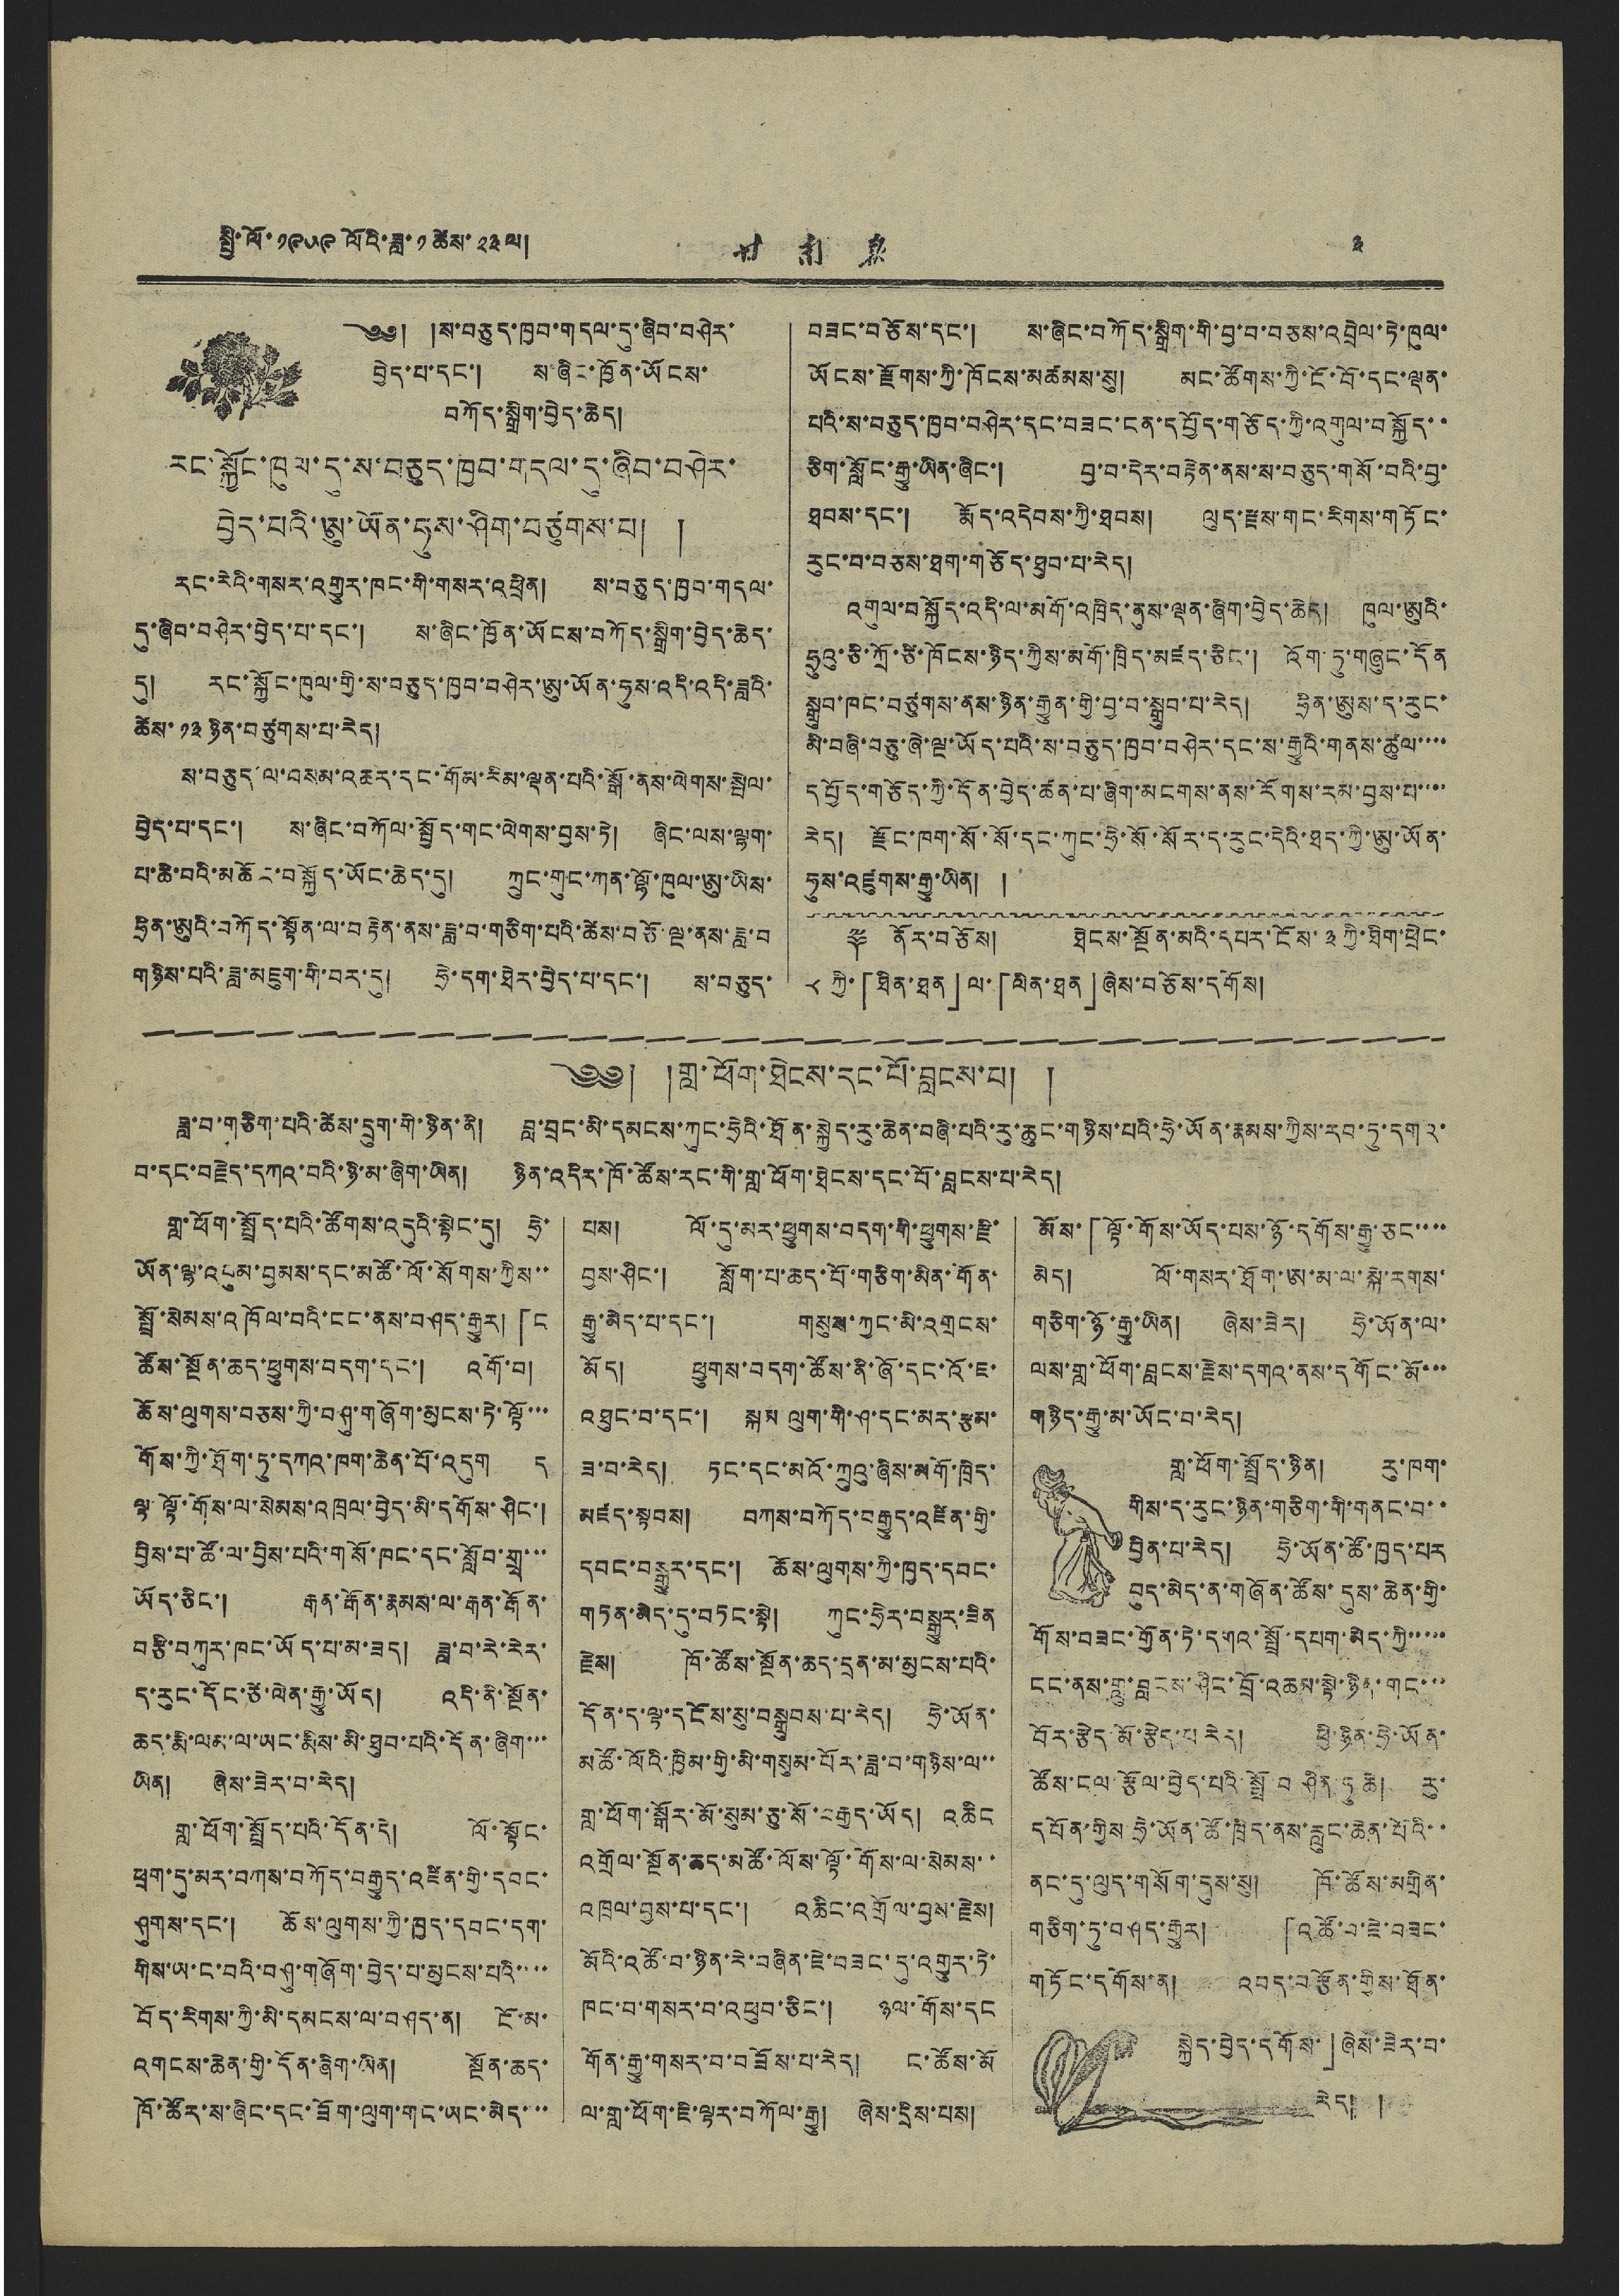སྤྱི་ལོ་ ༡༩༥༩ ལོའི་ཟླ་ ༡ ཚེས་ ༢༣ ལ། 甘 南 報 ༣
༄༅། །ས་བཅུད་ཁྱབ་གདལ་དུ་ཞིབ་བཤེར་
བྱེད་པ་དང་། ས་ཞིང་ཁྱོན་ཡོངས་
བཀོད་སྒྲིག་བྱེད་ཆེད།
རང་སྐྱོང་ཁུལ་དུ་ས་བཅུད་ཁྱབ་གདལ་དུ་ཞིབ་བཤེར་
བྱེད་པའི་ཨུ་ཡོན་ཧུས་ཤིག་བཙུགས་པ། །
རང་རེའི་གསར་འགྱུར་ཁང་གི་གསར་འཕྲིན། ས་བཅུད་ཁྱབ་གདལ་
དུ་ཞིབ་བཤེར་བྱེད་པ་དང་། ས་ཞིང་ཁྱོན་ཡོངས་བཀོད་སྒྲིག་བྱེད་ཆེད་
དུ། རང་སྐྱོང་ཁུལ་གྱི་ས་བཅུད་ཁྱབ་བཤེར་ཨུ་ཡོན་ཧུས་འདི་འདི་ཟླའི་
ཚེས་ ༡༣ ཉིན་བཙུགས་པ་རེད།
ས་བཅུད་ལ་བསམ་འཆར་དང་གོམ་རིམ་ལྡན་པའི་སྒོ་ནས་ལེགས་སྦེལ་
བྱེད་པ་དང་། ས་ཞིང་བཀོལ་སྦྱོད་གང་ལེགས་བྱས་ཏེ། ཞིང་ལས་ལྷག་
པ་ཆེ་བའི་མཆོང་བསྐྱོད་ཡོང་ཆེད་དུ། ཀྲུང་གུང་ཀན་ལྷོ་ཁུལ་ཨུ་ཡིས་
ཧྲིན་ཨུའི་བཀོད་སྟོན་ལ་བརྟེན་ནས་ཟླ་བ་གཅིག་པའི་ཚེས་བཅོ་ལྔ་ནས་ཟླ་བ
གཉིས་པའི་ཟླ་མཇུག་གི་བར་དུ། ཧྲེ་དག་ཐེར་བྱེད་པ་དང་། ས་བཅུད་
བཟང་བཅོས་དང་། ས་ཞིང་བཀོད་སྒྲིག་གི་བྱ་བ་བཅས་འབྲེལ་ཏེ་ཁུལ་
ཡོངས་རྫོགས་ཀྱི་ཁོངས་མཚམས་སུ། མང་ཚོགས་ཀྱི་ངོ་བོ་དང་ལྡན་
པའི་ས་བཅུད་ཁྱབ་བཤེར་དང་བཟང་ངན་དཔྱོད་གཅོད་ཀྱི་འགུལ་བསྐྱོད་་
ཅིག་སློང་རྒྱུ་ཡིན་ཞིང་། བྱ་བ་དེར་བརྟེན་ནས་ས་བཅུད་གསོ་བའི་བྱ་
ཐབས་དང་། རྨོད་འདེབས་ཀྱི་ཐབས། ལུད་རྫས་གང་རིགས་གཏོང་
རུང་བ་བཅས་ཐག་གཅོད་ཐུབ་པ་རེད།
འགུལ་བསྐྱོད་འདི་ལ་མགོ་འཁྲིད་ནུས་ལྡན་ཞིག་བྱེད་ཆེད། ཁུལ་ཨུའི་
ཧྲུའུ་ཅི་ཀྲོ་ཙི་ཁོངས་ཉིད་ཀྱིས་མགོ་ཁྲིད་མཛད་ཅིང་། འོག་ཏུ་གཞུང་དོན
སྒྲུབ་ཁང་བཙུགས་ནས་ཉིན་རྒྱུན་གྱི་བྱ་བ་སྒྲུབ་པ་རེད། ཧྲིན་ཨུས་ད་རུང་
མི་བཞི་བཅུ་ཞེ་ལྔ་ཡོད་པའི་ས་བཅུད་ཁྱབ་བཤེར་དང་ས་རྒྱུའི་གནས་ཚུལ་་་་
དཔྱོད་གཅོད་ཀྱི་དོན་བྱེད་ཚན་པ་ཞིག་མངགས་ནས་རོགས་རམ་བྱས་པ་་་་
རེད། རྫོང་ཁག་སོ་སོ་དང་ཀུང་ཧྲེ་སོ་སོར་ད་རུང་དེའི་ཐད་ཀྱི་ཨུ་ཡོན་
ཧུས་འཛུགས་རྒྱུ་ཡིན། །
༈ ནོར་བཅོས། ཐེངས་སྔོན་མའི་དཔར་ངོས་ ༣ ཀྱི་ཐིག་ཕྲེང་
༨ ཀྱི་「ཐིན་ཐན་」ལ་「ལིན་ཐན་」ཞེས་བཅོས་དགོས།
༄༅། །གླ་ཕོག་ཐེངས་དང་པོ་བླངས་པ། །
ཟླ་བ་གཅིག་པའི་ཚེས་དྲུག་གི་ཉིན་ནི། བླ་བྲང་མི་དམངས་ཀུང་ཧྲེའི་ཐོན་སྐྱེད་རུ་ཆེན་བཞི་པའི་རུ་ཆུང་གཉིས་པའི་ཧྲེ་ཡོན་རྣམས་ཀྱིས་རབ་ཏུ་དགའ་
བ་དང་བརྗེད་དཀའ་བའི་ཉི་མ་ཞིག་ཡིན། ཉིན་འདིར་ཁོ་ཚོས་རང་གི་གླ་ཕོག་ཐེངས་དང་པོ་བླངས་པ་རེད།
གླ་ཕོག་སྤྲོད་པའི་ཚོགས་འདུའི་སྟེང་དུ། ཧྲེ་
ཡོན་ལྷ་འབུམ་བྱམས་དང་མཚོ་ལོ་སོགས་ཀྱིས་་
སྤྲོ་སེམས་འཁོལ་བའི་ངང་ནས་བཤད་རྒྱུར། 「ང
ཚོས་སྔོན་ཆད་ཕྱུགས་བདག་དང་། འགོ་བ།
ཆོས་ལུགས་བཅས་ཀྱི་བཤུ་གཞོག་མྱངས་ཏེ་ལྟོ་་་
གོས་ཀྱི་ཐོག་ཏུ་དགའ་ཁག་ཆེན་པོ་འདུག ད
ལྟ་ལྟོ་གོས་ལ་སེམས་འཁྲལ་བྱེད་མི་དགོས་ཤིང་།
བྱིས་པ་ཚོ་ལ་བྱིས་པའི་གསོ་ཁང་དང་སློབ་གྲྭ་་་
ཡོད་ཅིང་། རྒན་རྒོན་རྣམས་ལ་རྒན་རྒོན་
བརྩི་བཀུར་ཁང་ཡོད་པ་མ་ཟད། ཟླ་བ་རེ་རེར་
ད་རུང་དོང་ཙེ་ལེན་རྒྱུ་ཡོད། འདི་ནི་སྔོན་
ཆད་རྨི་ལམ་ལ་ཡང་རྨིས་མི་ཐུབ་པའི་དོན་ཞིག་་་
ཡིན། ཞེས་ཟེར་བ་རེད།
གླ་ཕོག་སྤྲོད་པའི་དོན་དེ། ལོ་སྟོང་
ཕྲག་དུ་མར་བཀས་བཀོད་བརྒྱུད་འཛིན་གྱི་དབང་
ཤུགས་དང་། ཆོས་ལུགས་ཀྱི་ཁྱད་དབང་དག་
གིས་ཡ་ང་བའི་བཤུ་གཞོག་བྱེད་པ་མྱངས་པའི་་་་
བོད་རིགས་ཀྱི་མི་དམངས་ལ་བཤད་ན། ངོ་མ་
འགངས་ཆེན་གྱི་དོན་ཞིག་ཡིན། སྔོན་ཆད་
ཁོ་ཚོར་ས་ཞིང་དང་ཟོག་ལུག་གང་ཡང་མེད་་་
པས། ལོ་དུ་མར་ཕྱུགས་བདག་གི་ཕྱུགས་རྫི་
བྱས་ཤིང་། སློག་པ་ཆད་པོ་གཅིག་མིན་གོན་
རྒྱུ་མེད་པ་དང་། གསུས་ཀྱང་མི་འགྲངས་
མོད། ཕྱུགས་བདག་ཚོས་ནི་ཞོ་དང་འོ་ཇ་
འཐུང་བ་དང་། སྐམ་ལུག་གི་ཤ་དང་མར་རྩམ་
ཟ་བ་རེད། ཏང་དང་མའོ་ཀྲུའུ་ཞིས་མགོ་ཁྲིད་
མཛད་སྟབས། བཀས་བཀོད་བརྒྱུད་འཛིན་གྱི་
དབང་བསྒྱུར་དང་། ཆོས་ལུགས་ཀྱི་ཁྱད་དབང་
གཏན་མེད་དུ་བཏང་སྟེ། ཀུང་ཧྲེར་བསྒྱུར་ཟིན
རྗེས། ཁོ་ཚོས་སྔོན་ཆད་དྲན་མ་མྱངས་པའི་
དོན་ད་ལྟ་དངོས་སུ་བསྒྲུབས་པ་རེད། ཧྲེ་ཡོན་
མཚོ་ལོའི་ཁྱིམ་གྱི་མི་གསུམ་པོར་ཟླ་བ་གཉིས་ལ་་
གླ་ཕོག་སྒོར་མོ་སུམ་ཅུ་སོ་བརྒྱད་ཡོད། འཆིང
འགྲོལ་སྔོན་ཆད་མཚོ་ལོས་ལྟོ་གོས་ལ་སེམས་་
འཁྲལ་བྱས་པ་དང་། འཆིང་འགྲོལ་བྱས་རྗེས།
མོའི་འཚོ་བ་ཉིན་རེ་བཞིན་ཇེ་བཟང་དུ་འགྱུར་ཏེ་
ཁང་བ་གསར་བ་འཕུབ་ཅིང་། ཉལ་གོས་དང
གོན་རྒྱུ་གསར་བ་བཟོས་པ་རེད། ང་ཚོས་མོ
ལ་གླ་ཕོག་ཇི་ལྟར་བཀོལ་རྒྱུ། ཞེས་དྲིས་པས།
མོས་「ལྟོ་གོས་ཡོད་པས་ཉོ་དགོས་རྒྱུ་ཅང་་་་
མེད། ལོ་གསར་ཐོག་ཨ་མ་ལ་སྐེ་རགས་
གཅིག་ཉོ་རྒྱུ་ཡིན། ཞེས་ཟེར། ཧྲེ་ཡོན་ལ་
ལས་གླ་ཕོག་བླངས་རྗེས་དགའ་ནས་དགོང་མོ་་་
གཉིད་རྒྱུ་མ་ཡོང་བ་རེད།
གླ་ཕོག་སྤྲོད་ཉིན། རུ་ཁག་
གིས་ད་རུང་ཉིན་གཅིག་གི་གནང་བ་་
བྱིན་པ་རེད། ཧྲེ་ཡོན་ཚོ་ཁྱད་པར
བུད་མེད་ན་གཞོན་ཚོས་དུས་ཆེན་གྱི་
གོས་བཟང་གྱོན་ཏེ་དགའ་སྤྲོ་དཔག་མེད་ཀྱི་་་་་་
ངང་ནས་གླུ་བླངས་ཤིང་བྲོ་འཆམ་སྟེ་ཉིན་གང་་་
བོར་རྩེད་མོ་རྩེད་པ་རེད། ཕྱི་ཉིན་ཧྲེ་ཡོན་
ཚོས་ངལ་རྩོལ་བྱེད་པའི་སྤྲོ བ ཤིན་ཏུ་ཆེ། རུ་
དཔོན་གྱིས ཧྲེ་ཡོན་ཚོ་ཁྲིད་ནས་རླུང་ཆེན་པོའི་་
ནང་དུ་ལུད་གསོག་དུས་སུ། ཁོ་ཚོས་མགྲིན་
གཅིག་ཏུ་བཤད་རྒྱུར། 「འཚོ་བ་ཇེ་བཟང་
གཏོང་དགོས་ན། འབད་བརྩོན་གྱིས་ཐོན་
སྐྱེད་བྱེད་དགོས་」ཞེས་ཟེར་བ་
རེད། །
